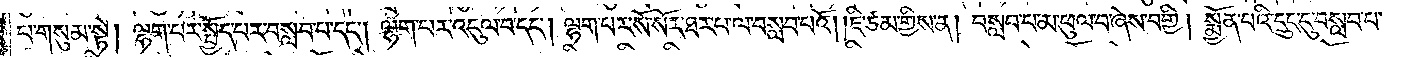པ་གསུམ་སྟེ། ལྷག་པར་སྤྱོད་པར་བསླབ་པ་དང༌། ལྷག་པར་འདུལ་བ་དང༌། ལྷག་པར་སོ་སོར་ཐར་པ་ལ་བསླབ་པའོ། །ཇི་ཙམ་གྱིས་ན། བསླབ་པ་མ་ཕུལ་བ་ཞེས་བགྱི། སྨྱོན་པའི་དྲུང་དུ་བསླབ་པ་
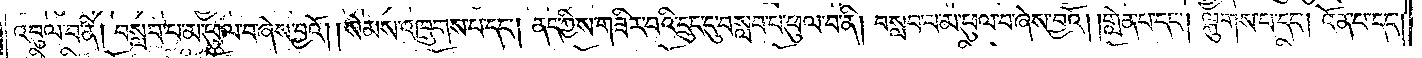འབུལ་བ་ནི། བསླབ་པ་མ་ཕུལ་བ་ཞེས་བྱའོ། །སེམས་འཁྲུགས་པ་དང༌། ནད་ཀྱིས་གཟིར་བའི་དྲུང་དུ་བསླབ་པ་ཕུལ་བ་ནི། བསླབ་པ་མ་ཕུལ་བ་ཞེས་བྱའོ། །གླེན་པ་དང༌། ལྐུགས་པ་དང༌། འོན་པ་དང༌།
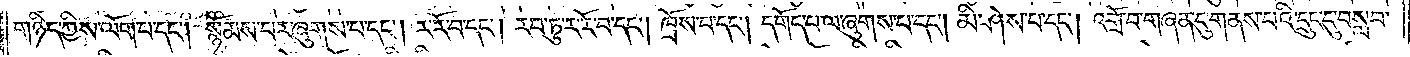གཉིད་ཀྱིས་ལོག་པ་དང༌། སྙོམས་པར་ཞུགས་པ་དང༌། ར་རོ་བ་དང༌། རབ་ཏུ་ར་རོ་བ་དང༌། ཁྲོས་པ་དང༌། དགོད་པ་ལ་ཞུགས་པ་དང༌། མི་ཤེས་པ་དང༌། འགྲོ་བ་གཞན་དུ་གནས་པའི་དྲུང་དུ་བསླབ་
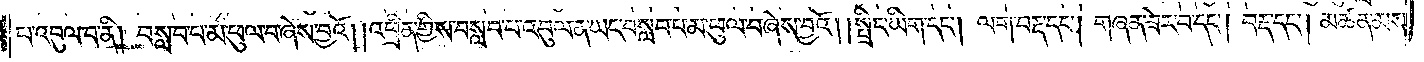པ་འབུལ་བ་ནི། བསླབ་པ་མ་ཕུལ་བ་ཞེས་བྱའོ། །འཕྲིན་གྱིས་བསླབ་པ་འབུལ་ན་ཡང་བསླབ་པ་མ་ཕུལ་བ་ཞེས་བྱའོ། །སྤྲིང་ཡིག་དང༌། ལག་བརྡ་དང༌། གཞན་ཟེར་བ་དང༌། བརྡ་དང༌། མཚན་མས་
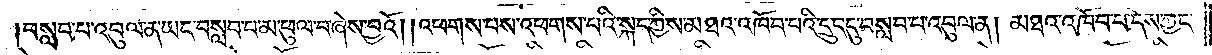བསླབ་པ་འབུལ་ན་ཡང་བསླབ་པ་མ་ཕུལ་བ་ཞེས་བྱའོ། །འཕགས་པས་འཕགས་པའི་སྐད་ཀྱིས་མཐའ་འཁོབ་པའི་དྲུང་དུ་བསླབ་པ་འབུལ་ན། མཐའ་འཁོབ་པ་དེས་ཀྱང་
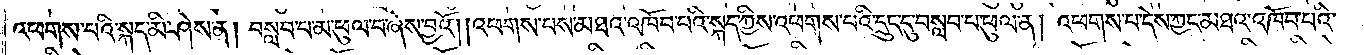འཕགས་པའི་སྐད་མི་ཤེས་ན། བསླབ་པ་མ་ཕུལ་བ་ཞེས་བྱའོ། །འཕགས་པས་མཐའ་འཁོབ་པའི་སྐད་ཀྱིས་འཕགས་པའི་དྲུང་དུ་བསླབ་པ་ཕུལ་ན། འཕགས་པ་དེས་ཀྱང་མཐའ་འཁོབ་པའི་
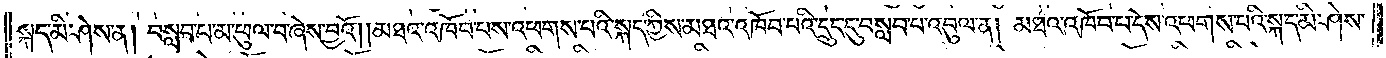སྐད་མི་ཤེས་ན། བསླབ་པ་མ་ཕུལ་བ་ཞེས་བྱའོ། །མཐའ་འཁོབ་པས་འཕགས་པའི་སྐད་ཀྱིས་མཐའ་འཁོབ་པའི་དྲུང་དུ་བསླབ་པ་འབུལ་ན། མཐའ་འཁོབ་པ་དེས་འཕགས་པའི་སྐད་མི་ཤེས་
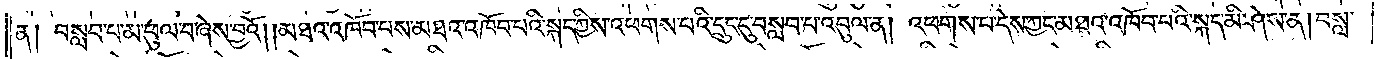ན༑ བསླབ་པ་མ་ཕུལ་བ་ཞེས་བྱའོ། །མཐའ་འཁོབ་པས་མཐའ་འཁོབ་པའི་སྐད་ཀྱིས་འཕགས་པའི་དྲུང་དུ་བསླབ་པ་འབུལ་ན། འཕགས་པ་དེས་ཀྱང་མཐའ་འཁོབ་པའི་སྐད་མི་ཤེས་ན། བསླ་
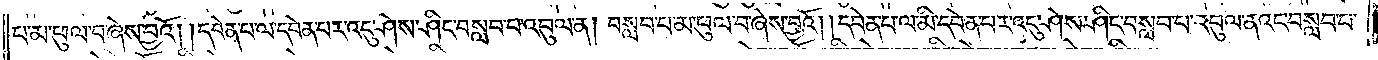པ་མ་ཕུལ་བ་ཞེས་བྱའོ། །དབེན་པ་ལ་དབེན་པར་འདུ་ཤེས་ཤིང་བསླབ་པ་འབུལ་ན། བསླབ་པ་མ་ཕུལ་བ་ཞེས་བྱའོ། །དབེན་པ་ལ་མི་དབེན་པར་འདུ་ཤེས་ཤིང་བསླབ་པ་འབུལ་ནའང་བསླབ་པ་
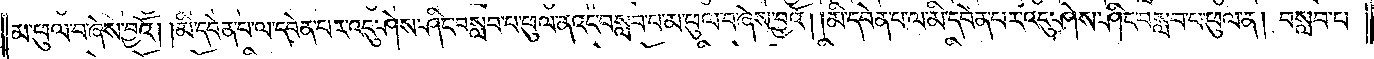མ་ཕུལ་བ་ཞེས་བྱའོ། །མི་དབེན་པ་ལ་དབེན་པར་འདུ་ཤེས་ཤིང་བསླབ་པ་ཕུལ་ནའང་བསླབ་པ་མ་ཕུལ་བ་ཞེས་བྱའོ། །མི་དབེན་པ་ལ་མི་དབེན་པར་འདུ་ཤེས་ཤིང་བསླབ་པ་ཕུལ་ན། བསླབ་པ་
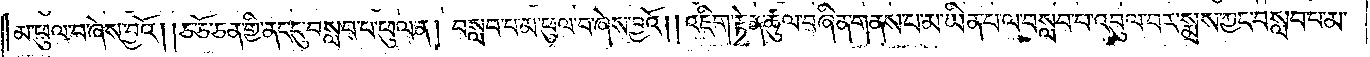མ་ཕུལ་བ་ཞེས་བྱའོ། །ཅ་ཅོ་ཅན་གྱི་ནང་དུ་བསླབ་པ་ཕུལ་ན། བསླབ་པ་མ་ཕུལ་བ་ཞེས་བྱའོ། །འཇིག་རྟེན་ཚུལ་བཞིན་གནས་པ་མ་ཡིན་པ་ལ་བསླབ་པ་འབུལ་བར་སྨྲས་ཀྱང་བསླབ་པ་མ་
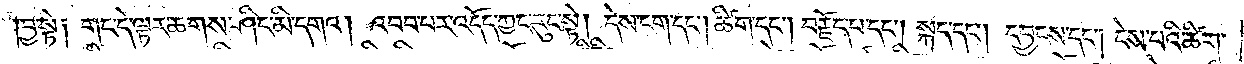བྱ་སྟེ། གང་དེ་ལྟར་ཆགས་ཤིང་མི་དགའ། འབབ་པར་འདོད་ཀྱང་རུང་སྟེ། དེས་ངག་དང༌། ཚིག་དང༌། བརྗོད་པ་དང༌། སྐད་དང༌། དབྱངས་དང༌། ངེས་པའི་ཚིག་
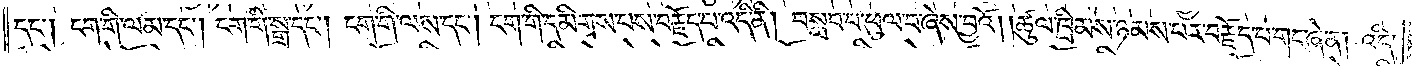དང༌། ངག་གི་ལམ་དང༌། ངག་གི་སྒྲ་དང༌། ངག་གི་ལས་དང༌། ངག་གི་དམིགས་པས་བརྗོད་པ་འདི་ནི། བསླབ་པ་ཕུལ་བ་ཞེས་བྱའོ། །ཚུལ་ཁྲིམས་ཉམས་པར་བརྗོད་པ་གང་ཞེ་ན། འདི་
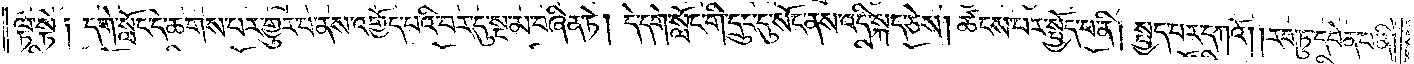ལྟ་སྟེ། དགེ་སློང་དེ་ཆགས་པར་གྱུར་པ་ནས་འགྱོད་པའི་བར་དུ་སྔ་མ་བཞིན་ཏེ། དེ་དགེ་སློང་གི་དྲུང་དུ་སོང་ནས་འདི་སྐད་ཅེས། ཚངས་པར་སྤྱོད་པ་ནི། སྤྱད་པར་དཀའོ། །རབ་ཏུ་དབེན་པ་ནི།
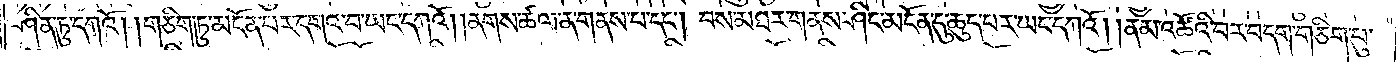ཤིན་ཏུ་དཀའོ། །གཅིག་ཏུ་མངོན་པར་དགའ་བ་ཡང་དཀའོ། །ནགས་ཚལ་ན་གནས་པ་དང༌། བས་མཐར་གནས་ཤིང་མངོན་དུ་ཆུད་པར་ཡང་དཀའོ། །ནམ་འཚོའི་བར་བདག་གཅིག་པུ་
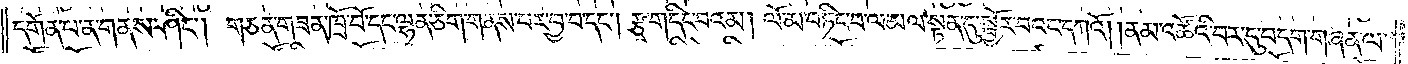དགོན་པ་ན་གནས་ཤིང༌། གཅན་གཟན་ཁྲོ་བོ་དང་ལྷན་ཅིག་གནས་པར་བྱ་བ་དང༌། རྩྭ་གདིང་བའམ། ལོ་མ་བཏིང་བ་ལ་མལ་སྟན་དུ་སྦྱོར་བའང་དཀའོ། །ནམ་འཚོའི་བར་དུ་བདག་གཞན་ལ་
